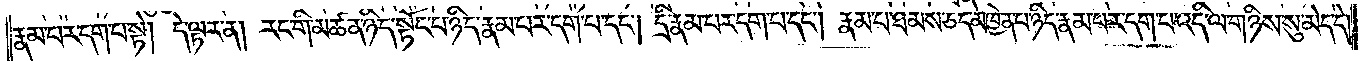རྣམ་པར་དག་པ་སྟེ། དེ་ལྟར་ན། རང་གི་མཚན་ཉིད་སྟོང་པ་ཉིད་རྣམ་པར་དག་པ་དང༌། དྲི་རྣམ་པར་དག་པ་དང༌། རྣམ་པ་ཐམས་ཅད་མཁྱེན་པ་ཉིད་རྣམ་པར་དག་པ་འདི་ལ་གཉིས་སུ་མེད་དེ།
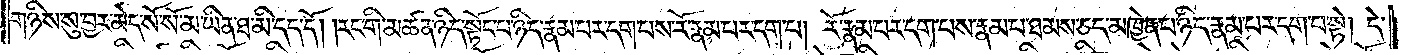གཉིས་སུ་བྱར་མེད་སོ་སོ་མ་ཡིན་ཐ་མི་དད་དོ། །རང་གི་མཚན་ཉིད་སྟོང་པ་ཉིད་རྣམ་པར་དག་པས་རོ་རྣམ་པར་དག་པ། རོ་རྣམ་པར་དག་པས་རྣམ་པ་ཐམས་ཅད་མཁྱེན་པ་ཉིད་རྣམ་པར་དག་པ་སྟེ། དེ་
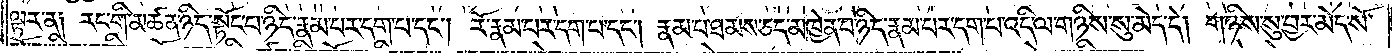ལྟར་ན༑ རང་གི་མཚན་ཉིད་སྟོང་པ་ཉིད་རྣམ་པར་དག་པ་དང༌། རོ་རྣམ་པར་དག་པ་དང༌། རྣམ་པ་ཐམས་ཅད་མཁྱེན་པ་ཉིད་རྣམ་པར་དག་པ་འདི་ལ་གཉིས་སུ་མེད་དེ། གཉིས་སུ་བྱར་མེད་སོ་
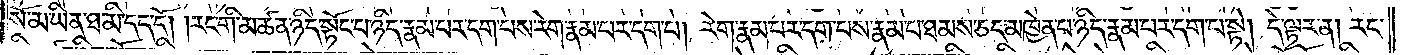སོ་མ་ཡིན་ཐ་མི་དད་དོ། །རང་གི་མཚན་ཉིད་སྟོང་པ་ཉིད་རྣམ་པར་དག་པས་རེག་རྣམ་པར་དག་པ། རེག་རྣམ་པར་དག་པས་རྣམ་པ་ཐམས་ཅད་མཁྱེན་པ་ཉིད་རྣམ་པར་དག་པ་སྟེ། དེ་ལྟར་ན། རང་
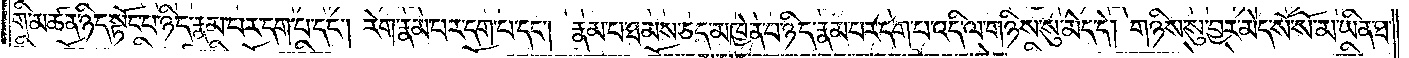གི་མཚན་ཉིད་སྟོང་པ་ཉིད་རྣམ་པར་དག་པ་དང༌། རེག་རྣམ་པར་དག་པ་དང༌། རྣམ་པ་ཐམས་ཅད་མཁྱེན་པ་ཉིད་རྣམ་པར་དག་པ་འདི་ལ་གཉིས་སུ་མེད་དེ། གཉིས་སུ་བྱར་མེད་སོ་སོ་མ་ཡིན་ཐ་
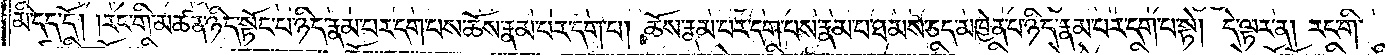མི་དད་དོ། །རང་གི་མཚན་ཉིད་སྟོང་པ་ཉིད་རྣམ་པར་དག་པས་ཆོས་རྣམ་པར་དག་པ། ཆོས་རྣམ་པར་དག་པས་རྣམ་པ་ཐམས་ཅད་མཁྱེན་པ་ཉིད་རྣམ་པར་དག་པ་སྟེ། དེ་ལྟར་ན། རང་གི་
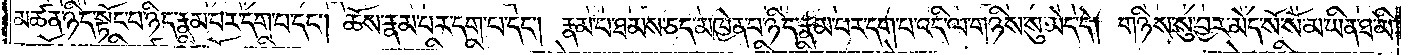མཚན་ཉིད་སྟོང་པ་ཉིད་རྣམ་པར་དག་པ་དང༌། ཆོས་རྣམ་པར་དག་པ་དང༌། རྣམ་པ་ཐམས་ཅད་མཁྱེན་པ་ཉིད་རྣམ་པར་དག་པ་འདི་ལ་གཉིས་སུ་མེད་དེ། གཉིས་སུ་བྱར་མེད་སོ་སོ་མ་ཡིན་ཐ་མི་
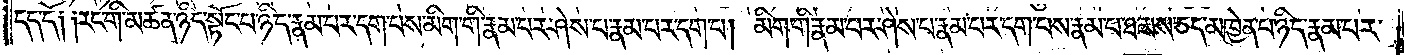དད་དོ༑ ༑རང་གི་མཚན་ཉིད་སྟོང་པ་ཉིད་རྣམ་པར་དག་པས་མིག་གི་རྣམ་པར་ཤེས་པ་རྣམ་པར་དག་པ། མིག་གི་རྣམ་པར་ཤེས་པ་རྣམ་པར་དག་པས་རྣམ་པ་ཐམས་ཅད་མཁྱེན་པ་ཉིད་རྣམ་པར་
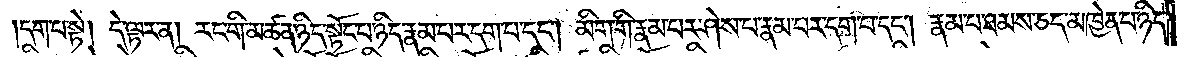དག་པ་སྟེ། དེ་ལྟར་ན། རང་གི་མཚན་ཉིད་སྟོང་པ་ཉིད་རྣམ་པར་དག་པ་དང༌། མིག་གི་རྣམ་པར་ཤེས་པ་རྣམ་པར་དག་པ་དང༌། རྣམ་པ་ཐམས་ཅད་མཁྱེན་པ་ཉིད་
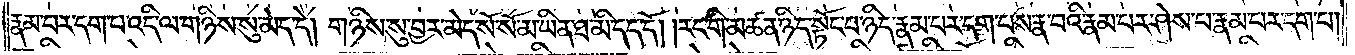རྣམ་པར་དག་པ་འདི་ལ་གཉིས་སུ་མེད་དེ། གཉིས་སུ་བྱར་མེད་སོ་སོ་མ་ཡིན་ཐ་མི་དད་དོ། །རང་གི་མཚན་ཉིད་སྟོང་པ་ཉིད་རྣམ་པར་དག་པས་རྣ་བའི་རྣམ་པར་ཤེས་པ་རྣམ་པར་དག་པ།
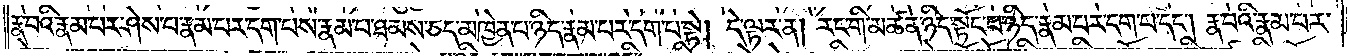རྣ་བའི་རྣམ་པར་ཤེས་པ་རྣམ་པར་དག་པས་རྣམ་པ་ཐམས་ཅད་མཁྱེན་པ་ཉིད་རྣམ་པར་དག་པ་སྟེ། དེ་ལྟར་ན། རང་གི་མཚན་ཉིད་སྟོང་པ་ཉིད་རྣམ་པར་དག་པ་དང༌། རྣ་བའི་རྣམ་པར་
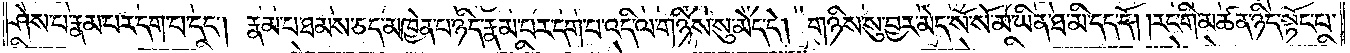ཤེས་པ་རྣམ་པར་དག་པ་དང༌། རྣམ་པ་ཐམས་ཅད་མཁྱེན་པ་ཉིད་རྣམ་པར་དག་པ་འདི་ལ་གཉིས་སུ་མེད་དེ། གཉིས་སུ་བྱར་མེད་སོ་སོ་མ་ཡིན་ཐ་མི་དད་དོ། །རང་གི་མཚན་ཉིད་སྟོང་པ་
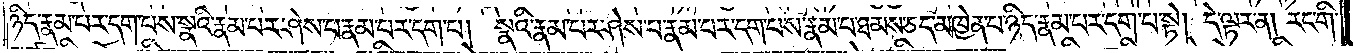ཉིད་རྣམ་པར་དག་པས་སྣའི་རྣམ་པར་ཤེས་པ་རྣམ་པར་དག་པ། སྣའི་རྣམ་པར་ཤེས་པ་རྣམ་པར་དག་པས་རྣམ་པ་ཐམས་ཅད་མཁྱེན་པ་ཉིད་རྣམ་པར་དག་པ་སྟེ། དེ་ལྟར་ན། རང་གི་
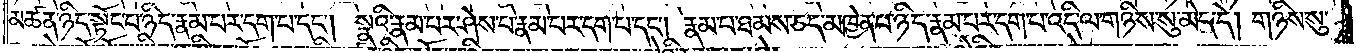མཚན་ཉིད་སྟོང་པ་ཉིད་རྣམ་པར་དག་པ་དང༌། སྣའི་རྣམ་པར་ཤེས་པ་རྣམ་པར་དག་པ་དང༌། རྣམ་པ་ཐམས་ཅད་མཁྱེན་པ་ཉིད་རྣམ་པར་དག་པ་འདི་ལ་གཉིས་སུ་མེད་དེ། གཉིས་སུ་
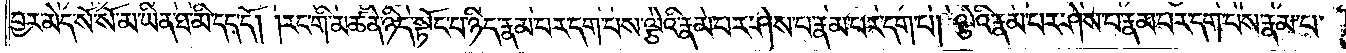བྱར་མེད་སོ་སོ་མ་ཡིན་ཐ་མི་དད་དོ། །རང་གི་མཚན་ཉིད་སྟོང་པ་ཉིད་རྣམ་པར་དག་པས་ལྕེའི་རྣམ་པར་ཤེས་པ་རྣམ་པར་དག་པ། ལྕེའི་རྣམ་པར་ཤེས་པ་རྣམ་པར་དག་པས་རྣམ་པ་
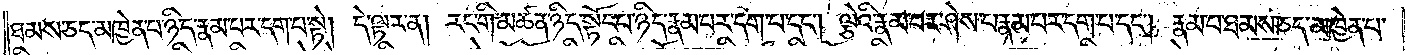ཐམས་ཅད་མཁྱེན་པ་ཉིད་རྣམ་པར་དག་པ་སྟེ། དེ་ལྟར་ན། རང་གི་མཚན་ཉིད་སྟོང་པ་ཉིད་རྣམ་པར་དག་པ་དང༌། ལྕེའི་རྣམ་པར་ཤེས་པ་རྣམ་པར་དག་པ་དང༌། རྣམ་པ་ཐམས་ཅད་མཁྱེན་པ་
